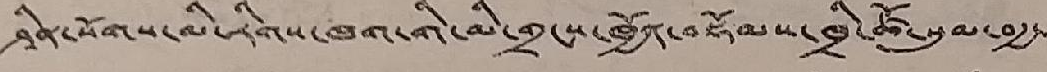ཤིན་སོགས་མི་རིགས་ཁག་གི་མི་གྲངས་ཁྱོན་བསྡོམས་ཁྲི་ཚོ་སུམ་བརྒྱ་
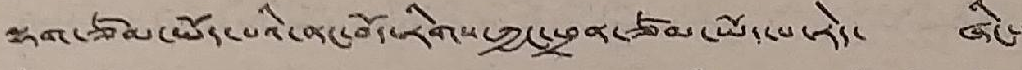ལྷག་ཙམ་ཡོད་པའི་ནང་བོད་རིགས་ཀྱང་ཕྲན་ཙམ་ཡོད་པ་རེད་ ཞིང་་་
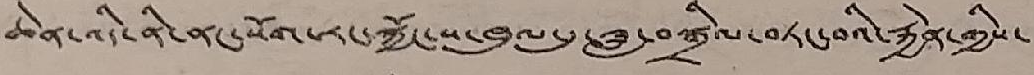ཆེན་འདི་ནི་ནང་སོག་རང་སྐྱོང་ས་ཁུལ་དུ་ཟླ་བ་བསྒྲིལ་བཏང་བའི་རྐྱེན་གྱིས་
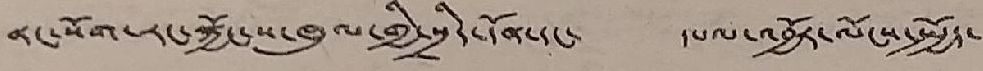ནང་སོག་རང་སྐྱོང་ས་ཁུལ་གྱི་སྲིད་དོན་དང་ དཔལ་འབྱོར་ལོངས་སྤྱོད་
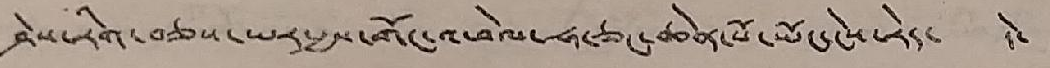ཤེས་རིག་བཅས་ཡར་རྒྱས་གོང་འཕེལ་ཧ་ཅང་ཆེན་པོ་ཡོང་ངེས་རེད་ དེ་
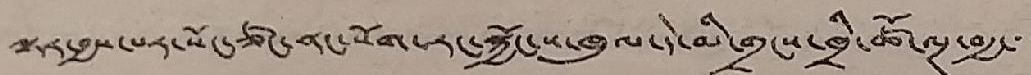ལྟར་བྱས་པར་སོང་ཙང་ནང་སོག་རང་སྐྱོང་ས་ཁུལ་དེ་མི་གྲངས་ཁྲི་ཚོ་ལྔ་བརྒྱ་་་
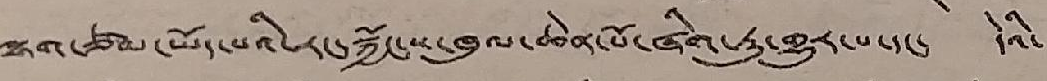ལྷག་ཙམ་ཡོད་པའི་རང་སྐྱོང་ས་ཁུལ་ཆེན་པོ་ཞིག་ཏུ་གྱུར་པ་དང་ དེའི་
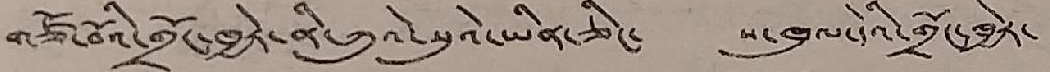གཙོ་བོའི་གྲོང་ཁྱེར་ནི་ཀུའེ་སུའེ་ཡིན་ཅིང་ ས་ཁུལ་དེའི་གྲོང་ཁྱེར་
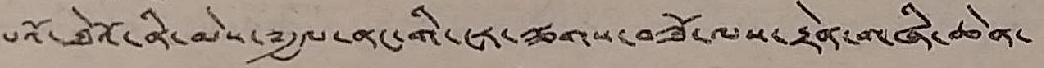པའོ་ཐེའོ་ནི་མེས་༸རྒྱལ་ནང་གི་ངར་ལྕགས་བཟོ་ལས་རྟེན་གཞི་ཆེན་
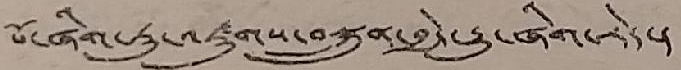པོ་ཞིག་ཏུ་འཛུགས་བསྐྲུན་བྱེད་རྒྱུ་ཞིག་རེད་།
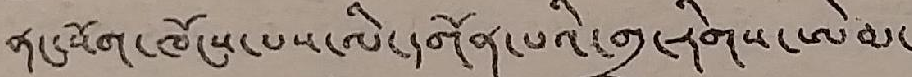ནང་སོག་ཁོངས་པས་ལི་དགོན་པའི་གྲྭ་རིགས་ཨེམ་
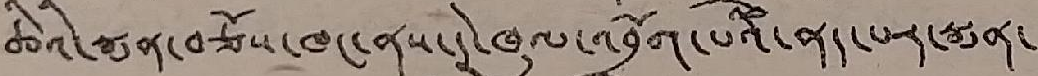ཆིའི་སྨན་བཅོས་ཁང་ནས་དེ་ཁུལ་འབྲོག་པའི་ནད་པར་སྨན་
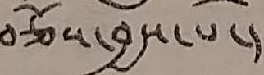བཅོས་བྱས་པ་།
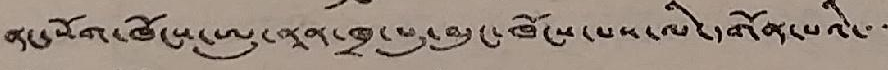ནང་སོག་ཁོངས་ཨུ་ནན་ཁྲ་པུ་མུང་ཁོངས་པས་ལི་དགོན་པའི་་་
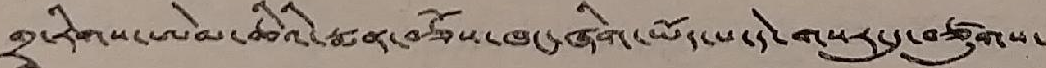གྲྭ་རིགས་ཨེམ་ཆིའི་སྨན་བཅོས་ཁང་ཞིག་ཡོད་པ་དེ་གསར་དུ་བཙུགས་
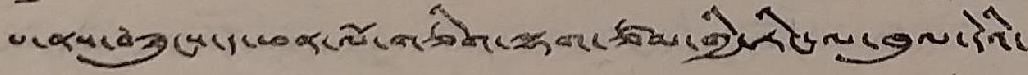པ་ནས་བཟུངས་ད་ཕན་ལོ་གཅིག་ལྷག་ཙམ་གྱི་རིང་ལ་ཁུལ་དེའི་
